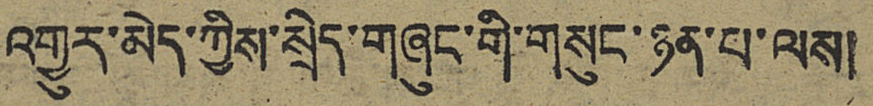འགྱུར་མེད་ཀྱིས་སྲིད་གཞུང་གི་གསུང་ཉན་པ་ལས།
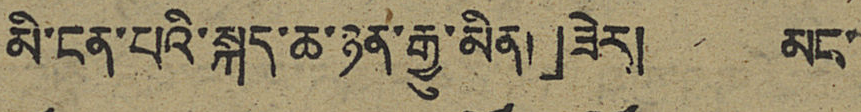མི་ངན་པའི་སྐད་ཆ་ཉན་རྒྱུ་མིན།」ཟེར། མང་
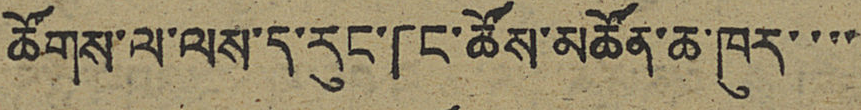ཚོགས་ལ་ལས་ད་རུང་「ང་ཚོས་མཚོན་ཆ་ཁུར་་་་
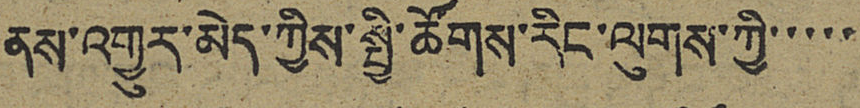ནས་འགྱུར་མེད་ཀྱིས་སྤྱི་ཚོགས་རིང་ལུགས་ཀྱི་་་་་
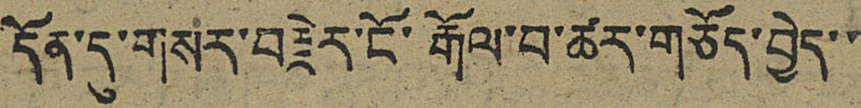དོན་དུ་གསར་བརྗེར་ངོ་རྒོལ་བ་ཚར་གཅོད་བྱེད་་
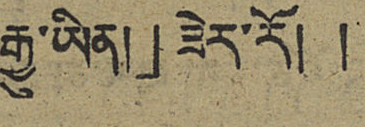རྒྱུ་ཡིན།」ཟེར་རོ། །
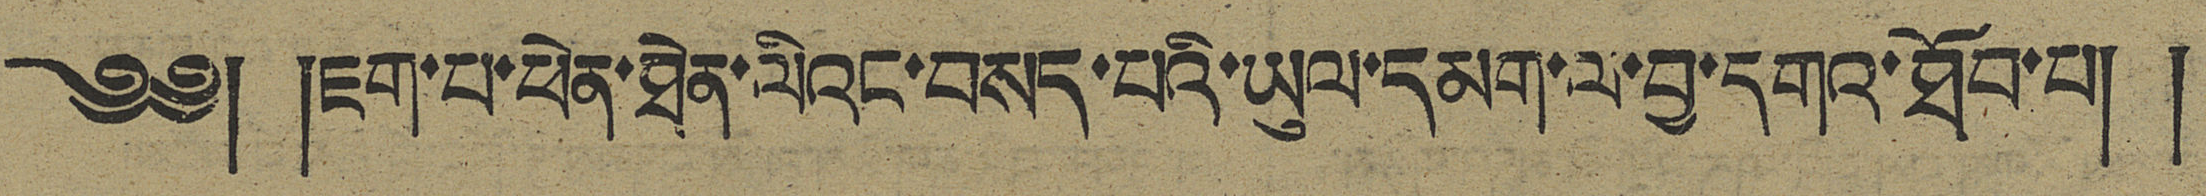༄༅། །ཇག་པ་ཕེན་ཐེན་ལིའང་བསད་པའི་ཡུལ་དམག་ལ་བྱ་དགའ་ཐོབ་པ། །
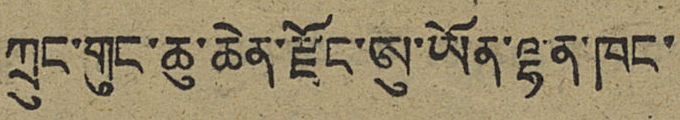ཀྲུང་གུང་ཆུ་ཆེན་རྫོང་ཨུ་ཡོན་ལྷན་ཁང་
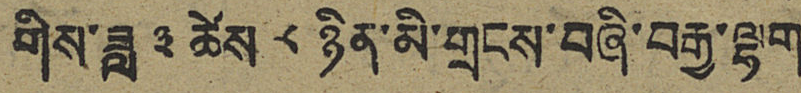གིས་ཟླ ༣ ཚེས ༨ ཉིན་མི་གྲངས་བཞི་བརྒྱ་ལྷག་
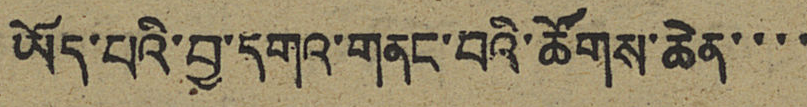ཡོད་པའི་བྱ་དགའ་གནང་བའི་ཚོགས་ཆེན་་་་
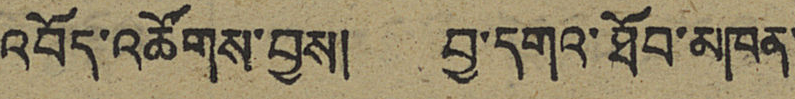འབོད་འཚོགས་བྱས། བྱ་དགའ་ཐོབ་མཁན་
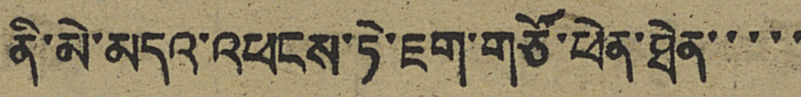ནི་མེ་མདའ་འཕངས་ཏེ་ཇག་གཙོ་ཕེན་ཐེན་་་་་
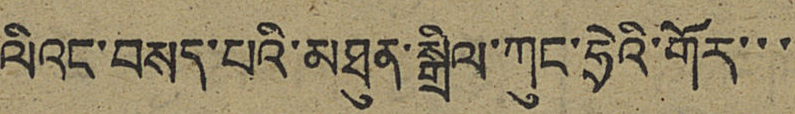ལིའང་བསད་པའི་མཐུན་སྒྲིལ་ཀུང་ཧྲེའི་གོར་་་
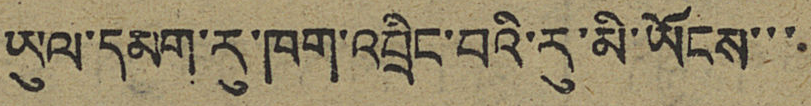ཡུལ་དམག་རུ་ཁག་འབྲིང་བའི་རུ་མི་ཡོངས་་་
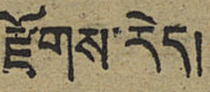རྫོགས་རེད།
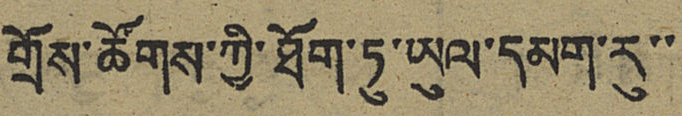གྲོས་ཚོགས་ཀྱི་ཐོག་ཏུ་ཡུལ་དམག་རུ་་
